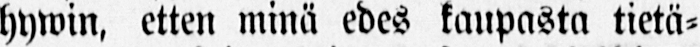hywin, etten minä edes kaupasta tietä-
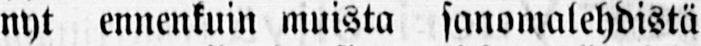nyt ennenkuin muista sanomalehdistä
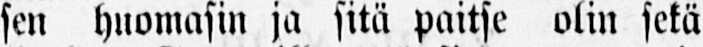sen huomasin ja sitä paitse olin sekä
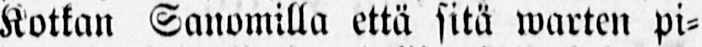Kotkan Sanomilla että sitä warten pi-
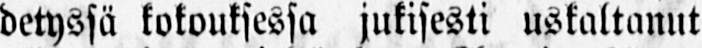detyssä kokouksessa jukisesti uskaltanut
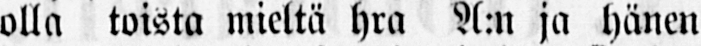olla toista mieltä hra A:n ja hänen
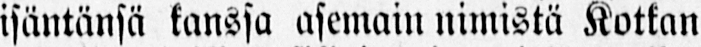isäntänsä kanssa asemain nimistä Kotkan
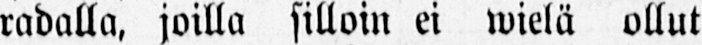radalla, joilla silloin ei wielä ollut
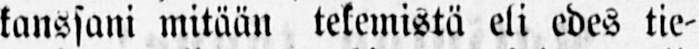kanssani mitään tekemistä eli edes tie-
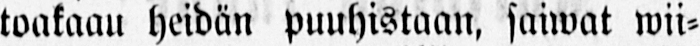toakaau heidän puuhistaan, saiwat wii-
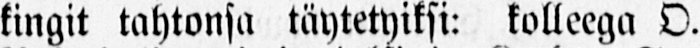kingit tahtonsa täytetyiksi: kolleega O.
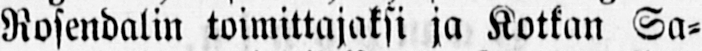Rosendalin toimittajaksi ja Kotkan Sa-
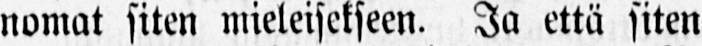nomat siten mieleisekseen. Ja että siten
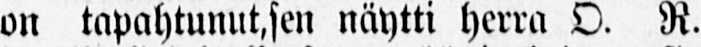on tapahtunut, sen näytti herra O. R.
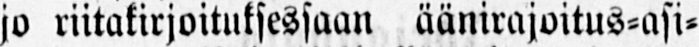jo riitakirjoituksessaan äänirajoitus-asi-
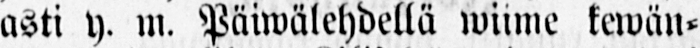asti y. m. Päiwälehdellä wiime kewän-
